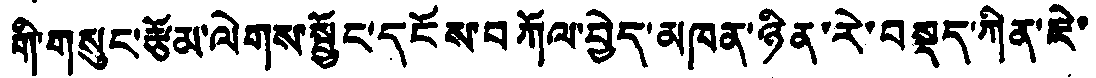གི་གསུང་རྩོམ་ལེགས་སྦྱོང་དངོས་བཀོལ་བྱེད་མཁན་ཉིན་རེ་བསྡད་ཀིན་ཇེ་
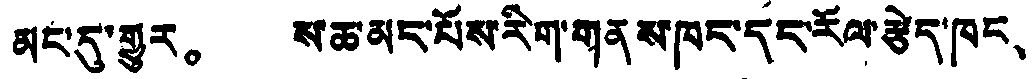མང་དུ་གྱུར。 ས་ཆ་མང་པོས་རིག་གནས་ཁང་དང་རོལ་རྩེད་ཁང、
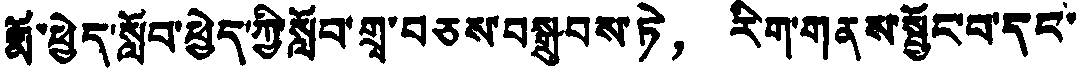རྨོ་ཕྱེད་སློབ་ཕྱེད་ཀྱི་སློབ་གྲྭ་བཅས་བསྒྲུབས་ཏེ， རིག་གནས་སྦྱོང་བ་དང་
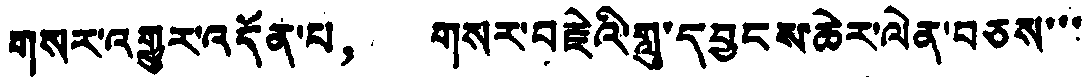གསར་འགྱུར་འདོན་པ， གསར་བརྗེའི་གླུ་དབྱངས་ཆེར་ལེན་བཅས་་་
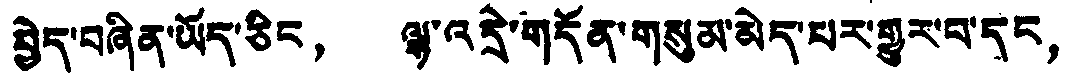བྱེད་བཞིན་ཡོད་ཅིང， ལྷ་འདྲེ་གདོན་གསུམ་མེད་པར་གྱུར་བ་དང，
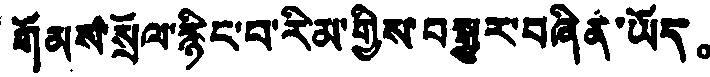གོམས་སྲོལ་རྙིང་བ་རིམ་གྱིས་བསྒྱུར་བཞིན་ཡོད。
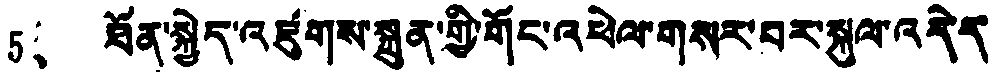5、 ཐོན་སྐྱེད་འཛུགས་སྐྲུན་གྱི་གོང་འཕེལ་གསར་བར་སྐུལ་འདེད
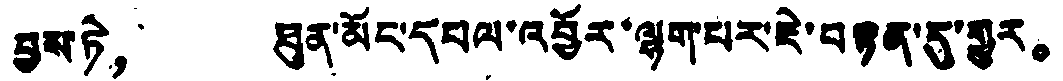བྱས་ཏེ， ཐུན་མོང་དཔལ་འབྱོར་ལྷག་པར་ཇེ་བརྟན་དུ་གྱུར。
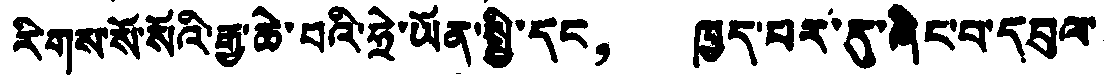རིགས་སོ་སོའི་རྒྱ་ཆེ་བའི་ཧྲེ་ཡོན་སྤྱི་དང， ཁྱད་པར་དུ་ཞིང་བ་དབུལ་
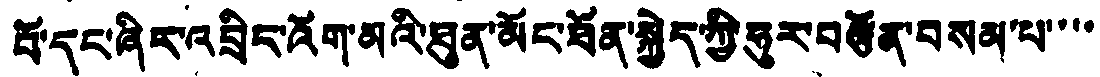པོ་དང་ཞིར་འབྲིང་འོག་མའི་ཐུན་མོང་ཐོན་སྐྱེད་ཀྱི་ཧུར་བརྩོན་བསམ་པ་་་་
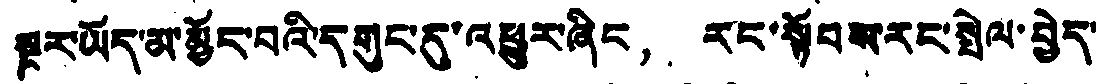སྔར་ཡོད་མ་མྱོང་བའི་དགུང་དུ་འཕྱུར་ཞིང， རང་སྟོབས་རང་སྤེལ་བྱེད་
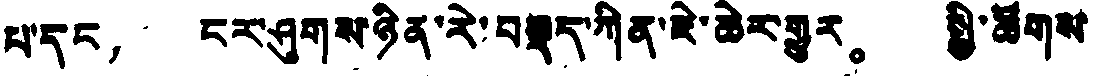པ་དང་， ངར་ཤུགས་ཉིན་རེ་བསྡད་ཀིན་ཇེ་ཆེར་གྱུར。 སྤྱི་ཚོགས
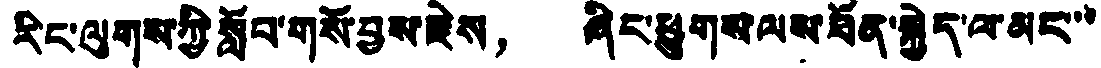རིང་ལུགས་ཀྱི་སློབ་གསོ་བྱས་རྗེས， ཞིང་ཕྱུགས་ལས་ཐོན་སྐྱེད་ལ་མང་་
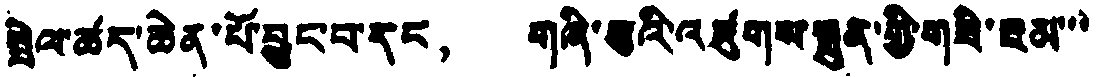སྤེལ་ཚད་ཆེན་པོ་བྱུང་བ་དང་， གཞི་རྩའི་འཛུགས་སྐྲུན་གྱི་གཟི་ཇམ་་
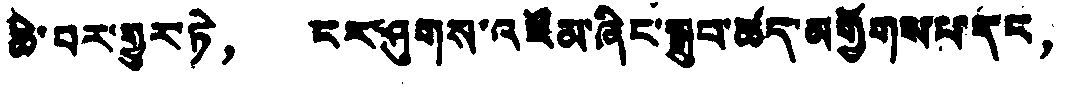ཆེ་བར་གྱུར་ཏེ， ངར་ཤུགས་འཛོམ་ཞིང་སྒྲུབ་ཚད་མགྱོགས་པ་དང，
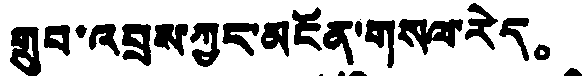གྲུབ་འབྲས་ཀྱང་མངོན་གསལ་རེད。
